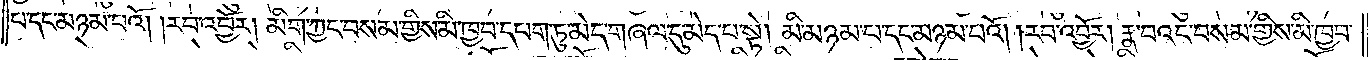པ་དང་མཉམ་པའོ། །རབ་འབྱོར། མིག་ཀྱང་བསམ་གྱིས་མི་ཁྱབ་དཔག་ཏུ་མེད་གཞལ་དུ་མེད་པ་སྟེ། མི་མཉམ་པ་དང་མཉམ་པའོ། །རབ་འབྱོར། རྣ་བའང་བསམ་གྱིས་མི་ཁྱབ་
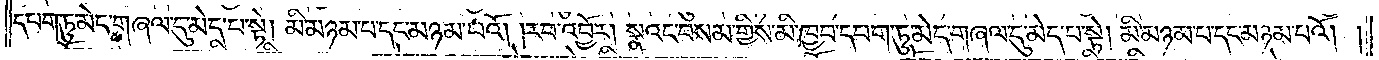དཔག་ཏུ་མེད་གཞལ་དུ་མེད་པ་སྟེ། མི་མཉམ་པ་དང་མཉམ་པའོ། །རབ་འབྱོར། སྣའང་བསམ་གྱིས་མི་ཁྱབ་དཔག་ཏུ་མེད་གཞལ་དུ་མེད་པ་སྟེ། མི་མཉམ་པ་དང་མཉམ་པའོ། །
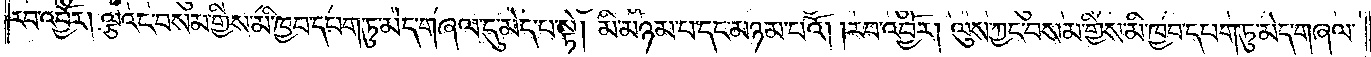རབ་འབྱོར། ལྕེའང་བསམ་གྱིས་མི་ཁྱབ་དཔག་ཏུ་མེད་གཞལ་དུ་མེད་པ་སྟེ། མི་མཉམ་པ་དང་མཉམ་པའོ། །རབ་འབྱོར། ལུས་ཀྱང་བསམ་གྱིས་མི་ཁྱབ་དཔག་ཏུ་མེད་གཞལ་
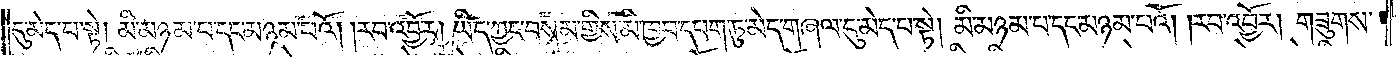དུ་མེད་པ་སྟེ། མི་མཉམ་པ་དང་མཉམ་པའོ། །རབ་འབྱོར། ཡིད་ཀྱང་བསམ་གྱིས་མི་ཁྱབ་དཔག་ཏུ་མེད་གཞལ་དུ་མེད་པ་སྟེ། མི་མཉམ་པ་དང་མཉམ་པའོ། །རབ་འབྱོར། གཟུགས་
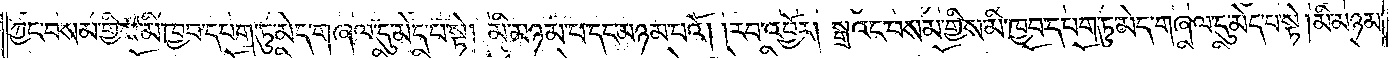ཀྱང་བསམ་གྱིས་མི་ཁྱབ་དཔག་ཏུ་མེད་གཞལ་དུ་མེད་པ་སྟེ། མི་མཉམ་པ་དང་མཉམ་པའོ། །རབ་འབྱོར། སྒྲའང་བསམ་གྱིས་མི་ཁྱབ་དཔག་ཏུ་མེད་གཞལ་དུ་མེད་པ་སྟེ། མི་མཉམ་
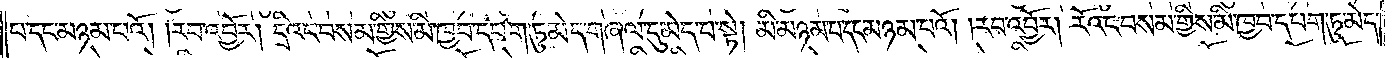པ་དང་མཉམ་པའོ། །རབ་འབྱོར། དྲིའང་བསམ་གྱིས་མི་ཁྱབ་དཔག་ཏུ་མེད་གཞལ་དུ་མེད་པ་སྟེ། མི་མཉམ་པ་དང་མཉམ་པའོ། །རབ་འབྱོར། རོའང་བསམ་གྱིས་མི་ཁྱབ་དཔག་ཏུ་མེད་
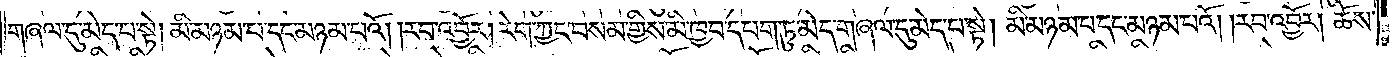གཞལ་དུ་མེད་པ་སྟེ། མི་མཉམ་པ་དང་མཉམ་པའོ། །རབ་འབྱོར། རེག་ཀྱང་བསམ་གྱིས་མི་ཁྱབ་དཔག་ཏུ་མེད་གཞལ་དུ་མེད་པ་སྟེ། མི་མཉམ་པ་དང་མཉམ་པའོ། །རབ་འབྱོར། ཆོས་
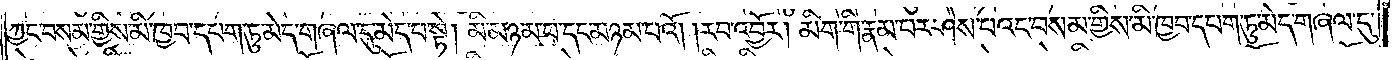ཀྱང་བསམ་གྱིས་མི་ཁྱབ་དཔག་ཏུ་མེད་གཞལ་དུ་མེད་པ་སྟེ། མི་མཉམ་པ་དང་མཉམ་པའོ། །རབ་འབྱོར། མིག་གི་རྣམ་པར་ཤེས་པའང་བསམ་གྱིས་མི་ཁྱབ་དཔག་ཏུ་མེད་གཞལ་དུ་
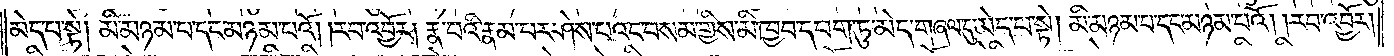མེད་པ་སྟེ། མི་མཉམ་པ་དང་མཉམ་པའོ། །རབ་འབྱོར། རྣ་བའི་རྣམ་པར་ཤེས་པའང་བསམ་གྱིས་མི་ཁྱབ་དཔག་ཏུ་མེད་གཞལ་དུ་མེད་པ་སྟེ། མི་མཉམ་པ་དང་མཉམ་པའོ། །རབ་འབྱོར།
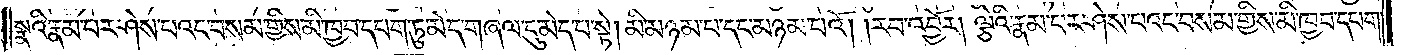སྣའི་རྣམ་པར་ཤེས་པའང་བསམ་གྱིས་མི་ཁྱབ་དཔག་ཏུ་མེད་གཞལ་དུ་མེད་པ་སྟེ། མི་མཉམ་པ་དང་མཉམ་པའོ། །རབ་འབྱོར། ལྕེའི་རྣམ་པར་ཤེས་པའང་བསམ་གྱིས་མི་ཁྱབ་དཔག་
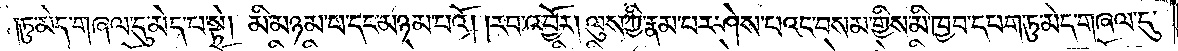ཏུ་མེད་གཞལ་དུ་མེད་པ་སྟེ། མི་མཉམ་པ་དང་མཉམ་པའོ། །རབ་འབྱོར། ལུས་ཀྱི་རྣམ་པར་ཤེས་པའང་བསམ་གྱིས་མི་ཁྱབ་དཔག་ཏུ་མེད་གཞལ་དུ་
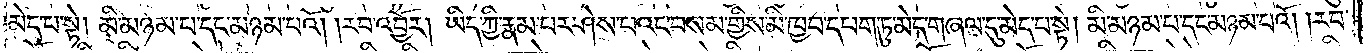མེད་པ་སྟེ། མི་མཉམ་པ་དང་མཉམ་པའོ། །རབ་འབྱོར། ཡིད་ཀྱི་རྣམ་པར་ཤེས་པའང་བསམ་གྱིས་མི་ཁྱབ་དཔག་ཏུ་མེད་གཞལ་དུ་མེད་པ་སྟེ། མི་མཉམ་པ་དང་མཉམ་པའོ། །རབ་
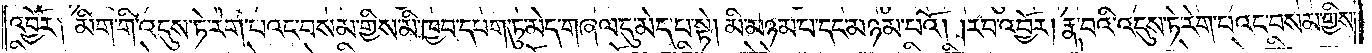འབྱོར། མིག་གི་འདུས་ཏེ་རེག་པའང་བསམ་གྱིས་མི་ཁྱབ་དཔག་ཏུ་མེད་གཞལ་དུ་མེད་པ་སྟེ། མི་མཉམ་པ་དང་མཉམ་པའོ། །རབ་འབྱོར། རྣ་བའི་འདུས་ཏེ་རེག་པའང་བསམ་གྱིས་
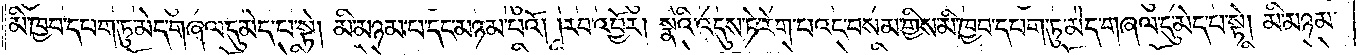མི་ཁྱབ་དཔག་ཏུ་མེད་གཞལ་དུ་མེད་པ་སྟེ། མི་མཉམ་པ་དང་མཉམ་པའོ། །རབ་འབྱོར། སྣའི་འདུས་ཏེ་རེག་པའང་བསམ་གྱིས་མི་ཁྱབ་དཔག་ཏུ་མེད་གཞལ་དུ་མེད་པ་སྟེ། མི་མཉམ་
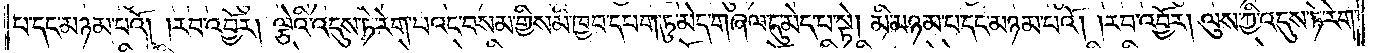པ་དང་མཉམ་པའོ། །རབ་འབྱོར། ལྕེའི་འདུས་ཏེ་རེག་པའང་བསམ་གྱིས་མི་ཁྱབ་དཔག་ཏུ་མེད་གཞལ་དུ་མེད་པ་སྟེ། མི་མཉམ་པ་དང་མཉམ་པའོ། །རབ་འབྱོར། ལུས་ཀྱི་འདུས་ཏེ་རེག་
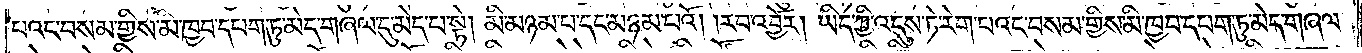པའང་བསམ་གྱིས་མི་ཁྱབ་དཔག་ཏུ་མེད་གཞལ་དུ་མེད་པ་སྟེ། མི་མཉམ་པ་དང་མཉམ་པའོ། །རབ་འབྱོར། ཡིད་ཀྱི་འདུས་ཏེ་རེག་པའང་བསམ་གྱིས་མི་ཁྱབ་དཔག་ཏུ་མེད་གཞལ་
